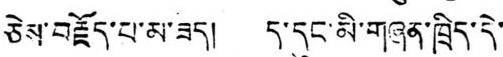ཅེས་བརྗོད་པ་མ་ཟད། ད་དུང་མི་གཞན་ཁྲིད་དེ་
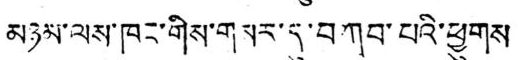མཉམ་ལས་ཁང་གིས་གསར་དུ་བཀབ་པའི་ཕྱུགས
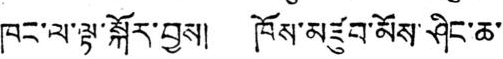ཁང་ལ་ལྟ་སྐོར་བྱས། ཁོས་མཛུབ་མོས་ཤིང་ཆ་
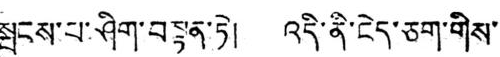སྤུངས་པ་ཤིག་བསྟན་ཏེ། འདི་ནི་ངེད་ཅག་གིས་
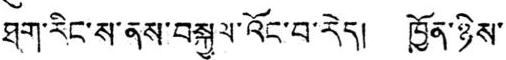ཐག་རིང་ས་ནས་བསྐྱལ་འོང་བ་རེད། ཁྱོན་ཉིས་
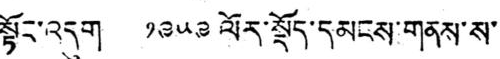སྟོང་འདུག ༡༩༥༩ ལོར་སྡོད་དམངས་གནས་ས་
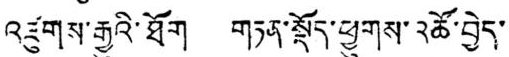འཛུགས་རྒྱུའི་ཐོག གཏན་སྡོད་ཕྱུགས་འཚོ་བྱེད་
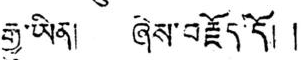རྒྱུ་ཡིན། ཞེས་བརྗོད་དོ། །
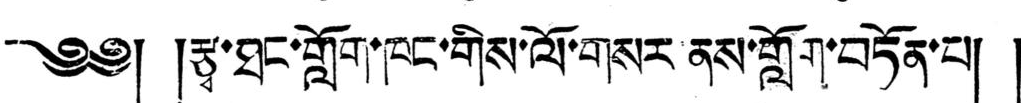༄༅། །རྩྭ་ཐང་གློག་ཁང་གིས་ལོ་གསར་ནས་གློག་བཏོན་པ། །
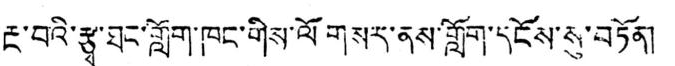རྔ་བའི་རྩྭ་ཐང་གློག་ཁང་གིས་ལོ གསར་ནས་གློག་དངོས་སུ་བཏོན།
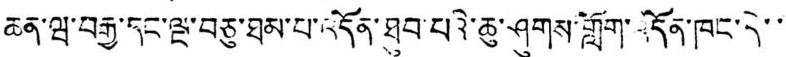ཆན་ཝ་བརྒྱ་དང་ལྔ་བཅུ་ཐམ་པ་འདོན་ཐུབ་པའི་ཆུ་ཤུགས་གློག་འདོན་ཁང་དེ་་
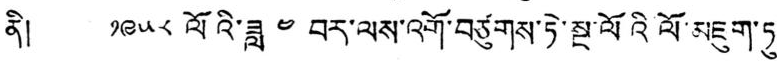ནི། ༡༩༥༨ ལོའི་ཟླ ༤ བར་ལས་འགོ་བཙུགས་ཏེ་སྔ་ལོའི་ལོ་མཇུག་ཏུ་
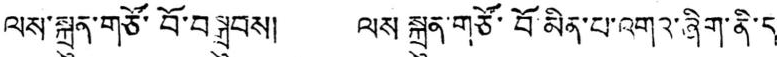ལས་སྐྲུན་གཙོ་བོ་བསྒྲུབས། ལས སྐྲུན་གཙོ་བོ་མིན་པ་འགའ་ཞིག་ནི་ད་
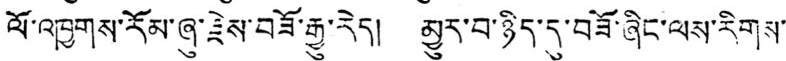ལོ་འཁྱགས་རོམ་ཞུ་རྗེས་བཟོ་རྒྱུ་རེད། མྱུར་བ་ཉིད་དུ་བཟོ་ཞིང་ལས་རིགས་
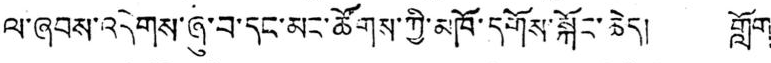ལ་ཞབས་འདེགས་ཞུ་བ་དང་མང་ཚོགས་ཀྱི་མཁོ་དགོས་སྐོང་ཆེད། གློག་
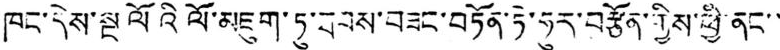ཁང་དེས་སྔ ལོའི ལོ་མཇུག་ཏུ་ཐབས་བཟང་བཏོན་ཏེ་ཧུར་བརྩོན་གྱསི་ཕྱི་ནང་་
